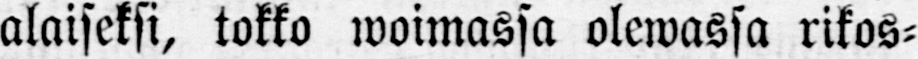alaiseksi, tokko woimassa olewassa rikos-
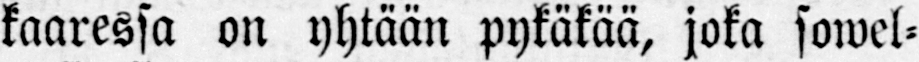kaaressa on yhtään pykäkää, joka sowel-
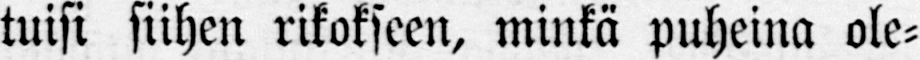tuisi siihen rikokseen, minkä puheina ole-
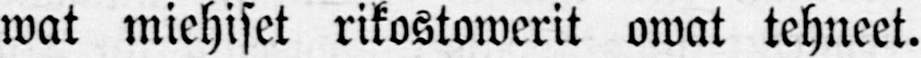wat miehiset rikostowerit owat tehneet.
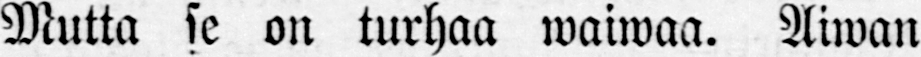Mutta se on turhaa waiwaa. Aiwan
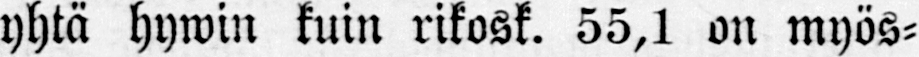yhtä hywin kuin rikosk. 55,1 on myös-
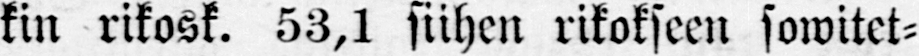kin rikosk. 53,1 siihen rikokseen sowitet-
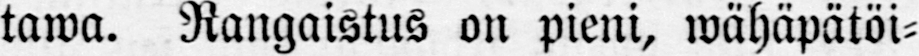tawa. Rangaistus on pieni, wähäpätöi-
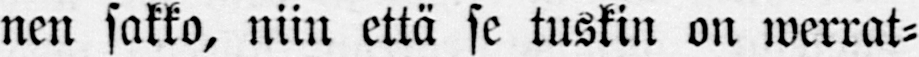nen sakko, niin että se tuskin on werrat-
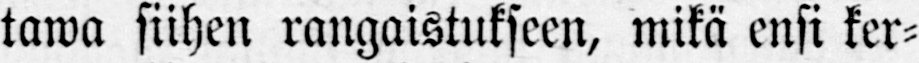tawa siihen rangaistukseen, mikä ensi ker-
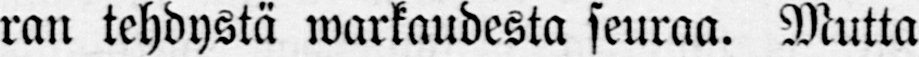ran tehdystä warkaudesta seuraa. Mutta
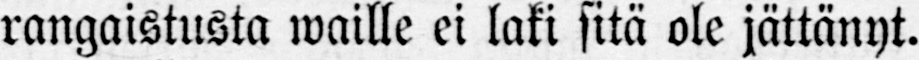rangaistusta waille ei laki sitä ole jättänyt.
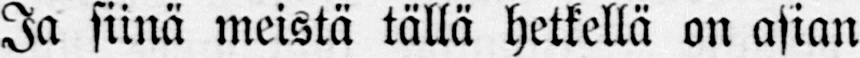Ja siinä meistä tällä hetkellä on asian
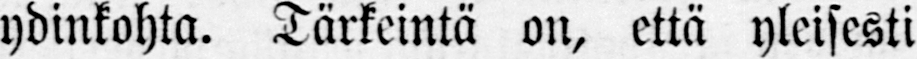ydinkohta. Tärkeintä on, että yleisesti
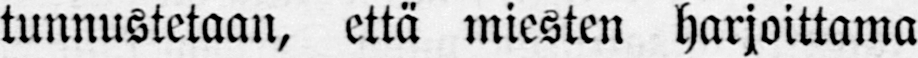tunnustetaan, että miesten harjoittama
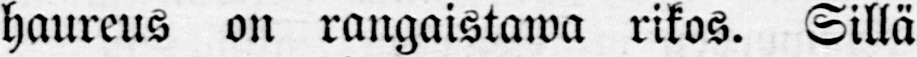haureus on rangaistawa rikos. Sillä
